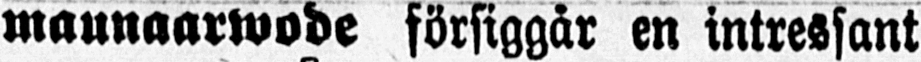mannaarwode försiggår en intressant
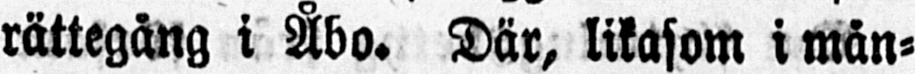rättegång i Åbo. Där, likasom i mån-
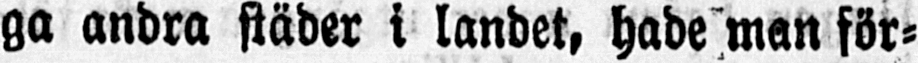ga andra städer i landet, hade man för-
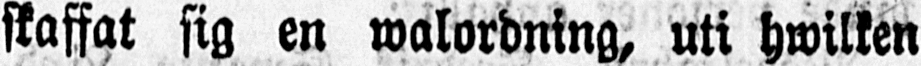skaffat sig en walordning, uti hwilken
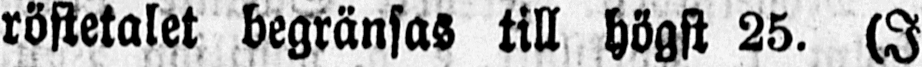röstetalet begränsas till högst 25. (I
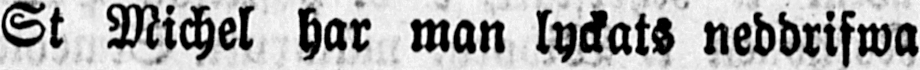St Michel har man lyckats neddrifwa
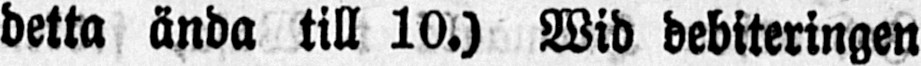detta ända till 10.) Wid debiteringen
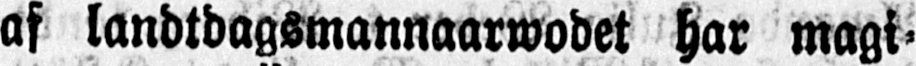af landtdagsmannaarwodet har magi-
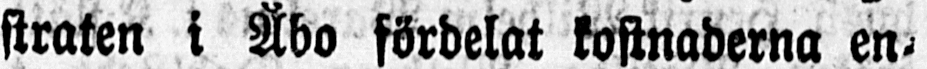straten i Åbo fördelat kostnaderna en-
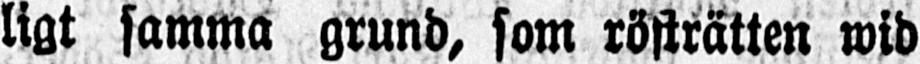ligt samma grund, som rösträtten wid
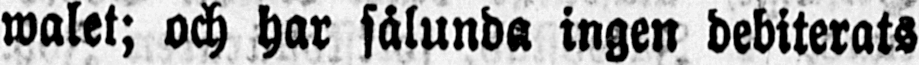walet; och har sålunda ingen debiterats
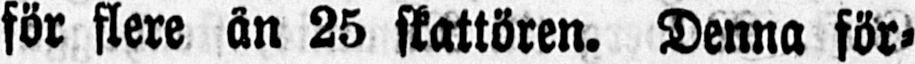för flere än 25 skattören. Denna för-
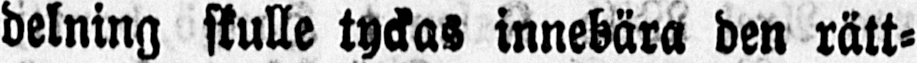delning skulle tyckas innebära den rätt-
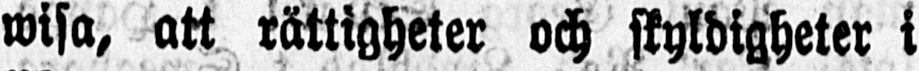wisa, att rättigheter och skyldigheter i
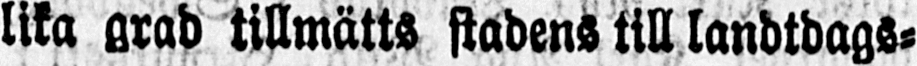lika grad tillmätts stadens till landtdags-
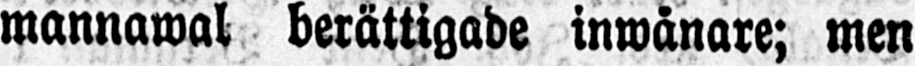mannawal berättigade inwånare; men
